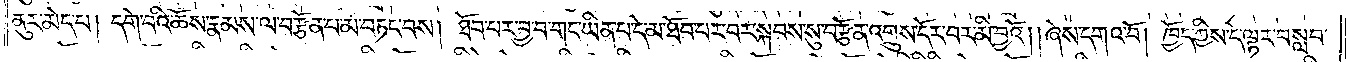ནུར་མེད་པ། དགེ་བའི་ཆོས་རྣམས་ལ་བརྩོན་པ་མ་བཏང་བས། ཐོབ་པར་བྱ་བ་གང་ཡིན་པ་དེ་མ་ཐོབ་པར་བར་སྐབས་སུ་བརྩོན་འགྲུས་དོར་བར་མི་བྱའོ། །ཞེས་དགའ་བོ། ཁྱོད་ཀྱིས་དེ་ལྟར་བསླབ་
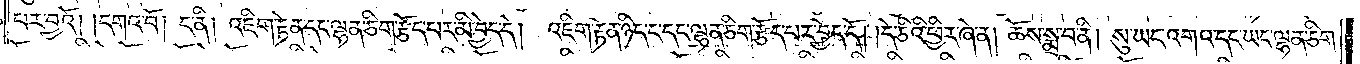པར་བྱའོ། །དགའ་བོ། ང་ནི། འཇིག་རྟེན་དང་ལྷན་ཅིག་རྩོད་པར་མི་བྱེད་དེ། འཇིག་རྟེན་ཉིད་ང་དང་ལྷན་ཅིག་རྩོད་པར་བྱེད་དོ། །དེ་ཅིའི་ཕྱིར་ཞེ་ན། ཆོས་སྨྲ་བ་ནི། སུ་ཡང་འགའ་དང་ཡང་ལྷན་ཅིག་
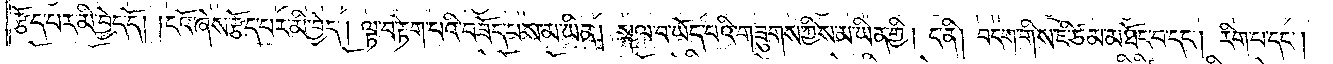རྩོད་པར་མི་བྱེད་དོ། །ངའོ་ཞེས་རྩོད་པར་མི་བྱེད། ལྟ་བ་རྟོག་པའི་བཟོད་པས་མ་ཡིན། སྐལ་བ་ཡོད་པའི་གཟུགས་ཀྱིས་མ་ཡིན་གྱི། ང་ནི། བདག་གིས་ཇི་ཙམ་མཐོང་བ་དང༌། རིག་པ་དང༌།
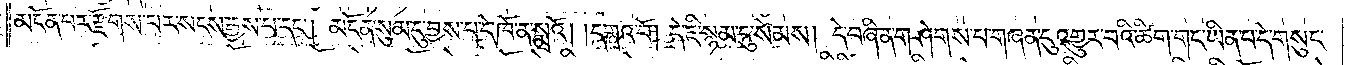མངོན་པར་རྫོགས་པར་སངས་རྒྱས་པ་དང༌། མངོན་སུམ་དུ་བྱས་པ་དེ་ཁོ་ན་སྨྲའོ། །དགའ་བོ། དེ་ཇི་སྙམ་དུ་སེམས། དེ་བཞིན་གཤེགས་པ་གཞན་དུ་འགྱུར་བའི་ཚིག་གང་ཡིན་པ་དེ་གསུང་
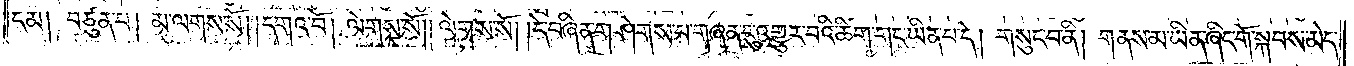ངམ། བཙུན་པ། མ་ལགས་སོ། །དགའ་བོ། ལེགས་སོ། །ལེགས་སོ། །དེ་བཞིན་གཤེགས་པ་གཞན་དུ་འགྱུར་བའི་ཚིག་གང་ཡིན་པ་དེ། གསུང་བ་ནི། གནས་མ་ཡིན་ཞིང་གོ་སྐབས་མེད་
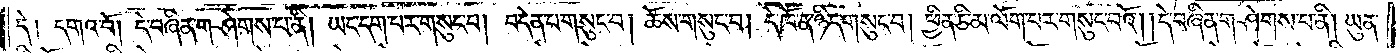དེ། དགའ་བོ། དེ་བཞིན་གཤེགས་པ་ནི། ཡང་དག་པར་གསུང་པ། བདེན་པ་གསུང་བ། ཆོས་གསུང་བ། དེ་ཁོ་ན་ཉིད་གསུང་བ། ཕྱིན་ཅི་མ་ལོག་པར་གསུང་བའོ། །དེ་བཞིན་གཤེགས་པ་ནི། ཡུན་
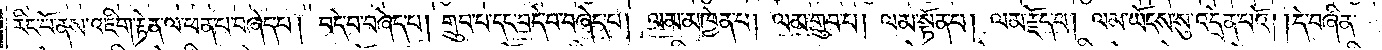རིང་པོ་ནས་འཇིག་རྟེན་ལ་ཕན་པ་བཞེད་པ། བདེ་བ་བཞེད་པ། གྲུབ་པ་དང་བདེ་བ་བཞེད་པ། ལམ་མཁྱེན་པ། ལམ་གྲུབ་པ། ལམ་སྟོན་པ། ལམ་རྗོད་པ། ལམ་ཡོངས་སུ་འདྲེན་པའོ། །དེ་བཞིན་
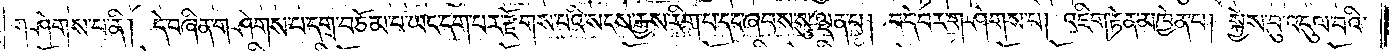གཤེགས་པ་ནི། དེ་བཞིན་གཤེགས་པ་དགྲ་བཅོམ་པ་ཡང་དག་པར་རྫོགས་པའི་སངས་རྒྱས་རིག་པ་དང་ཞབས་སུ་ལྡན་པ། བདེ་བར་གཤེགས་པ། འཇིག་རྟེན་མཁྱེན་པ། སྐྱེས་བུ་འདུལ་བའི་
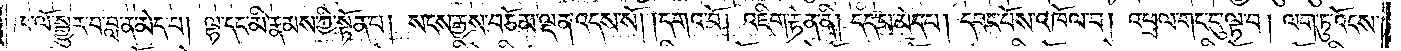ཁ་ལོ་སྒྱུར་བ་བླ་ན་མེད་པ། ལྷ་དང་མི་རྣམས་ཀྱི་སྟོན་པ། སངས་རྒྱས་བཅོམ་ལྡན་འདས་སོ། །དགའ་བོ། འཇིག་རྟེན་ནི། དད་པ་མེད་པ། དབང་པོས་འཁོལ་བ། འཕྲལ་གང་དུ་ལྟ་བ། ལག་ཏུ་འོངས་
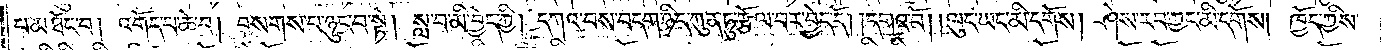པ་མཐོང་བ། འགོད་པ་ཆེ་བ། བསགས་པ་ཉུང་བ་སྟེ། སླ་བ་མི་བྱེད་ཀྱི། དཀའ་བས་བདག་ཉིད་ཀུན་ཏུ་རྩོལ་བར་བྱེད་དོ། །དགའ་བོ། །ལུང་ཡང་མི་དགོས། ཤེས་རབ་ཀྱང་མི་དགོས། ཁྱོད་ཀྱིས་
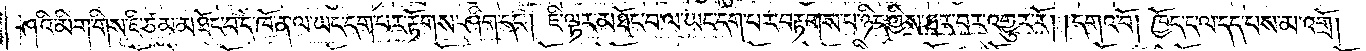ཤའི་མིག་གིས་ཇི་ཙམ་མཐོང་བ་དེ་ཁོ་ན་ལ་ཡང་དག་པར་རྟོགས་ཤིག་དང༌། ཇི་ལྟར་མཐོང་བ་ལ་ཡང་དག་པར་བརྟགས་པ་ཉིད་ཀྱིས་ཐར་བར་འགྱུར་རོ། །དགའ་བོ། ཁྱོད་ང་ལ་དད་པས་མ་འགྲོ་
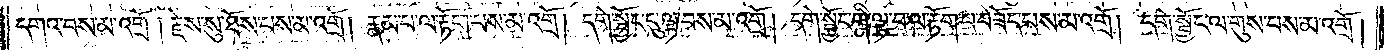དགའ་བོས་མ་འགྲོ། རྗེས་སུ་ཐོས་པས་མ་འགྲོ། རྣམ་པ་ལ་རྟོག་པས་མ་འགྲོ། དགེ་སྦྱོང་དུ་ལྟ་བས་མ་འགྲོ། དགེ་སྦྱོང་གི་ལྟ་བ་ལ་རྟོག་པ་བཟོད་པས་མ་འགྲོ། དགེ་སྦྱོང་ལ་གུས་པས་མ་འགྲོ།
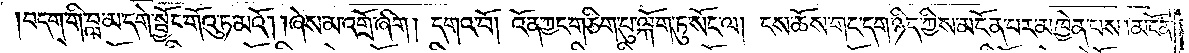བདག་གི་བླ་མ་དགེ་སྦྱོང་གོའུ་ཏ་མའོ། །ཞེས་མ་འགྲོ་ཞིག། དགའ་བོ། འོན་ཀྱང་གཅིག་པུ་ལྐོག་ཏུ་སོང་ལ། ངས་ཆོས་གང་དག་ཉིད་ཀྱིས་མངོན་པར་མཁྱེན་པས། མངོན་
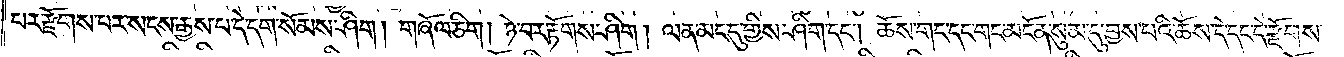པར་རྫོགས་པར་སངས་རྒྱས་པ་དེ་དག་སོམས་ཤིག །གཞོལ་ཅིག །ཉེ་བར་རྟོགས་ཤིག། ལན་མང་དུ་གྱིས་ཤིག་དང༌། ཆོས་གང་དང་གང་མངོན་སུམ་དུ་བྱས་པའི་ཆོས་དེ་དང་དེ་རྫོགས་
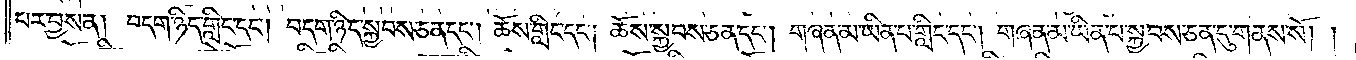པར་བྱས་ན། བདག་ཉིད་གླིང་དང༌། བདག་ཉིད་སྐྱབས་ཅན་དང༌། ཆོས་གླིང་དང༌། ཆོས་སྐྱབས་ཅན་དང༌། གཞན་མ་ཡིན་པ་གླིང་དང༌། གཞན་མ་ཡིན་པ་སྐྱབས་ཅན་དུ་གནས་སོ། །
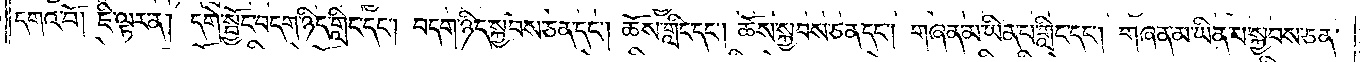དགའ་བོ། ཇི་ལྟར་ན། དགེ་སྦྱོང་བདག་ཉིད་གླིང་དང༌། བདག་ཉིད་སྐྱབས་ཅན་དང༌། ཆོས་གླིང་དང༌། ཆོས་སྐྱབས་ཅན་དང༌། གཞན་མ་ཡིན་པ་གླིང་དང༌། གཞན་མ་ཡིན་པ་སྐྱབས་ཅན་
